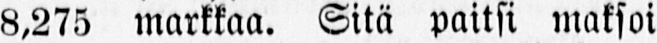8,275, markkaa. Sitä paitsi maksoi
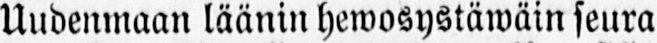Uudenmaan läänin hewosystäwäin seura
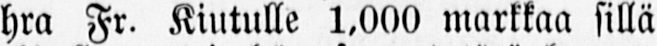hra Fr. Kiutulle 1,000 markkaa sillä
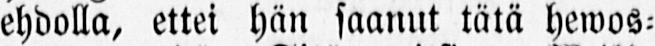ehdolla, ettei hän saanut tätä hewos-
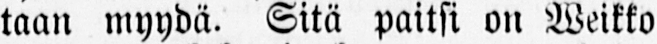taan myydä. Sitä paitsi on Weikko
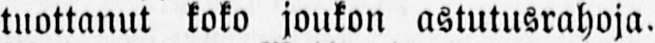tuottanut koko joukon astutusrahoja.
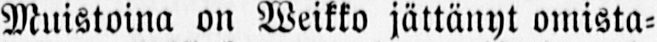Muistoina on Weikko jättänyt omista-
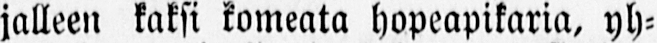jalleen kaksi komeata hopeapikaria, yh-
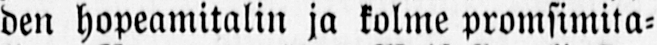den hopeamitalin ja kolme promsimita-
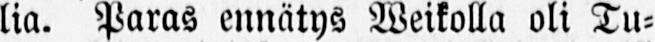lia. Paras ennätys Weikolla oli Tu-
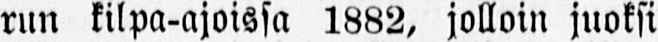run kilpa-ajoissa 1882, jolloin juoksi
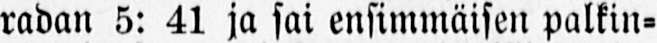radan 5: 41 ja sai ensimmäisen palkin-
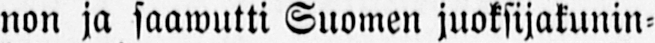non ja saawutti Suomen juoksijakunin-
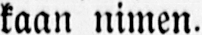kaan nimen.
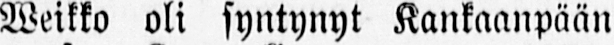Weikko oli syntynyt Kankaanpään
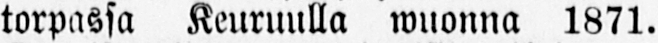torpassa Keuruulla wuonna 1871.
